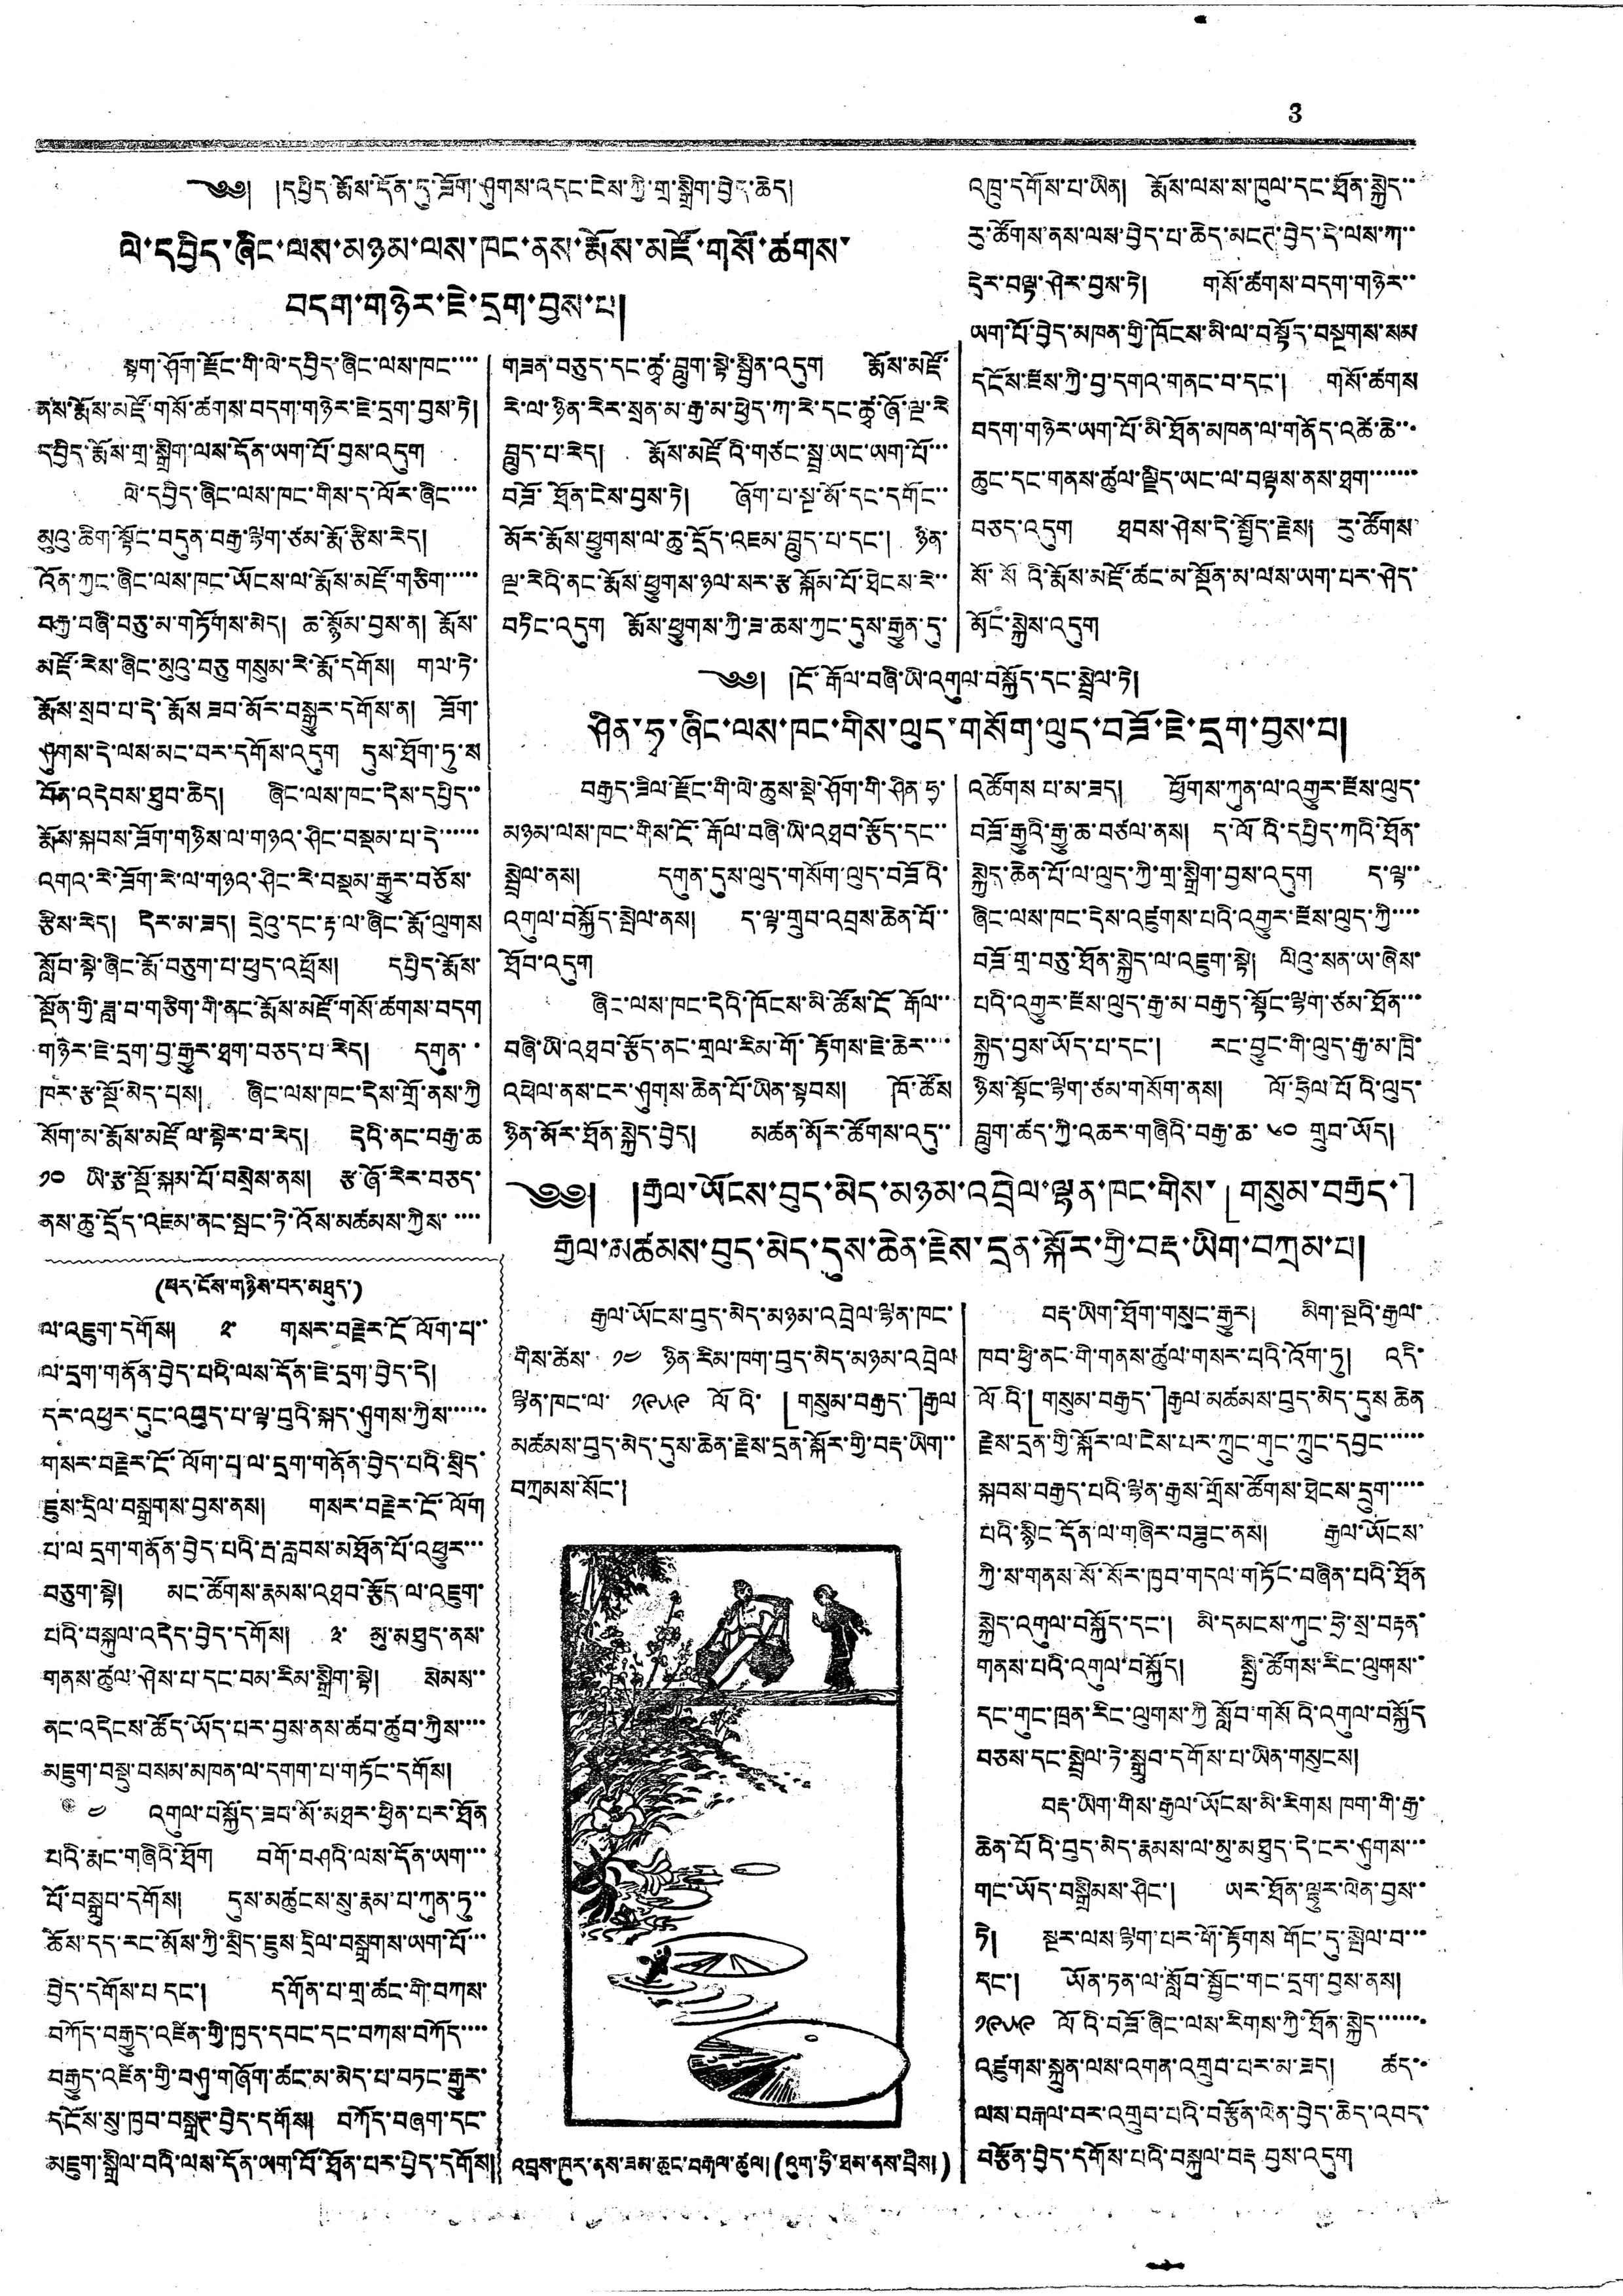3
༄༅། །དཔྱིད་རྨོས་དོན་དུ་ཟོག་ཤུགས་འདང་ངེས་ཀྱི་གྲ་སྒྲིག་བྱེད་ཆེད།
ལེ་དབྱིད་ཞིང་ལས་མཉམ་ལས་ཁང་ནས་རྨོས་མཛོ་གསོ་ཚགས་
བདག་གཉེར་ཇེ་དྲག་བྱས་པ།
སྟག་ཤོག་རྫོང་གི་ལེ་དབྱིད་ཞིང་ལས་ཁང་་་་
ནས་རྨོས་མཛོ་གསོ་ཚགས་བདག་གཉེར་ཇེ་དྲག་བྱས་ཏེ།
དཔྱིད་རྨོས་གྲ་སྒྲིག་ལས་དོན་ཡག་པོ་བྱས་འདུག
ལེ་དབྱིད་ཞིང་ལས་ཁང་གིས་ད་ལོར་ཞིང་་་་
མུའུ་ཆིག་སྟོང་བདུན་བརྒྱ་ལྷག་ཙམ་རྨོ་རྩིས་རེད།
འོན་ཀྱང་ཞིང་ལས་ཁང་ཡོངས་ལ་རྨོས་མཛོ་གཅིག་་་་་
བརྒྱ་བཞི་བཅུ་མ་གཏོགས་མེད། ཆ་སྙོམ་བྱས་ན། རྨོས་
མཛོ་རེས་ཞིང་མུའུ་བཅུ གསུམ་རེ་རྨོ་དགོས། གལ་ཏེ་
རྨོས་སྲབ་པ་དེ་རྨོས ཟབ་མོར་བསྒྱུར་དགོས་ན། ཟོག་
ཤུགས་དེ་ལས་མང་བར་དགོས་འདུག དུས་ཐོག་ཏུ་ས
བོན་འདེབས་ཐུབ་ཆེད། ཞིང་ལས་ཁང་དེས་དཔྱིད་་
རྨོས་སྐབས་ཟོག་གཉིས་ལ་གཉའ་ཤིང་བསྡམ་པ་དེ་་་་་
འགའ་རེ་ཟོག་རེ་ལ་གཉའ་ཤིང་རེ་བསྡམ་རྒྱུར་བཅོས་
རྩིས་རེད། དེར་མ་ཟད། དྲེའུ་དང་རྟ་ལ་ཞིང་རྨོ་ལུགས
སློབ་སྟེ་ཞིང་རྨོ་བཅུག་པ་ཕུད་འཕྲོས། དཔྱིད་རྨོས་
སྔོན་གྱི་ཟླ་བ་གཅིག་གི་ནང་རྨོས་མཛོ་གསོ་ཚགས་བདག
གཉེར་ཇེ་དྲག་བྱ་རྒྱུར་ཐག་བཅད་པ་རེད། དགུན་་
ཁར་རྩ་སྔོ་མེད་པས། ཞིང་ལས་ཁང་དེས་གྲོ་ནས་ཀྱི
སོག་མ་རྨོས་མཛོ ལ་སྟེར་བ་རེད། དེའི་ནང་བརྒྱ་ཆ
༡༠ ཡི་རྩ་སྔོ་སྐམ་པོ་བསྲེས་ནས། རྩ་ཞོ་རེར་བཅད་
ནས་ཆུ་དྲོད་འཇམ་ནང་སྦང་ཏེ་འོས་མཚམས་ཀྱིས་་་་་
གཟན་བཅུད་དང་ཚྭ་བླུག་སྟེ་སྦྱིན་འདུག རྨོས་མཛོ་
རེ་ལ་ཉིན་རེར་སྲན་མ་རྒྱ་མ་ཕྱེད་ཀ་རེ་དང་ཚྭ་ཞོ་ལྔ་རེ
བླུད་པ་རེད། རྨོས་མཛོའི་གཙང་སྦྲ་ཡང་ཡག་པོ་་་
བཟོ་ཐོན་ངེས་བྱས་ཏེ། ཞོག་པ་སྔ་མོ་དང་དགོང་་
མོར་རྨོས་ཕྱུགས་ལ་ཆུ་དྲོད་འཇམ་བླུད་པ་དང་། ཉིན་
ལྔ་རེའི་ནང་རྨོས་ཕྱུགས་ཉལ་སར་རྩ སྐོམ་པོ་ཐེངས་རེ་་
བཏིང་འདུག རྨོས་ཕྱུགས་ཀྱི་ཟ་ཆས་ཀྱང་དུས་རྒྱུན་དུ་
འཁྲུ་དགོས་པ་ཡིན། རྨོས་ལས་ས་ཁུལ་དང་ཐོན་སྐྱེད་་
རུ་ཚོགས་ནས་ལས་བྱེད་པ་ཆེད་མངཊ་བྱེད་དེ་ལས་ཀ་་
དེར་བལྟ་ཤེར་བྱས་ཏེ། གསོ་ཚགས་བདག་གཉེར་་
ཡག་པོ་བྱེད་མཁན་གྱི་ཁོངས་མི་ལ་བསྟོད་བསྔགས་སམ
དངོས་རྫས་ཀྱི་བྱ་དགའ་གནང་བ་དང་། གསོ་ཚགས
བདག་གཉེར་ཡག་པོ་མི་ཐོན་མཁན་ལ་གནོད་འཚེ་ཆེ་་་
ཆུང་དང་གནས་ཚུལ་ལྗིད་ཡང་ལ་བལྟས་ནས་ཐག་་་་་་་
བཅད་འདུག ཐབས་ཤེས་དེ་སྤྱོད་རྗེས། རུ་ཚོགས་
སོ་སོའི་རྨོས་མཛོ་ཚང་མ་སྔོན་མ་ལས་ཡག་པར་ཤེད་
མོང་སྐྱེས་འདུག
༄༅། །ངོ་རྒོལ་བཞི་ཡི་འགུལ་བསྐྱོད་དང་སྦྲེལ་ཏེ།
ཤིན་ཧྭ་ཞིང་ལས་ཁང་གིས་ལུད་གསོག་ལུད་བཟོ་ཇེ་དྲག་བྱས་པ།
བརྒྱད་ཟིལ་རྫོང་གི་ལེ་ཆུས་སྡེ་ཤོག་གི་ཤིན་ཧྭ་
མཉམ་ལས་ཁང་གིས་ངོ་རྒོལ་བཞི་ཡི་འཐབ་རྩོད་དང་་
སྦྲེལ་ནས། དགུན་དུས་ལུད་གསོག་ལུད་བཟོའི་
འགུལ་བསྐྱོད་སྤེལ་ནས། ད་ལྟ་གྲུབ་འབྲས་ཆེན་པོ་་
ཐོབ་འདུག
ཞིང་ལས་ཁང་དེའི་ཁོངས་མི་ཚོས་ངོ རྒོལ་་
བཞི་ཡི་འཐབ་རྩོད་ནང་གྲལ་རིམ་གོ་རྟོགས་ཇེ་ཆེར་་་་
འཕེལ་ནས་ངར་ཤུགས་ཆེན་པོ་ཡིན་སྟབས། ཁོ་ཚོས
ཉིན་མོར་ཐོན་སྐྱེད་བྱེད། མཚན་མོར་ཚོགས་འདུ་་
འཚོགས པ་མ་ཟད། ཕྱོགས་ཀུན་ལ་འགྱུར་རྫས་ལུད་
བཟོ་རྒྱུའི་རྒྱུ་ཆ་བཙལ་ནས། ད་ལོའི་དཔྱིད་ཀའི་ཐོན་
སྐྱེད་ཆེན་པོ་ལ་ལུད་ཀྱི་གྲ་སྒྲིག་བྱས་འདུག ད་ལྟ་་
ཞིང་ལས་ཁང་དེས་འཛུགས་པའི་འགྱུར་རྫས་ལུད་ཀྱི་་་་
བཟོ་གྲ་བཅུ་ཐོན་སྐྱེད་ལ་འཇུག་སྟེ། ལིའུ་སན་ཡ་ཞེས་
པའི་འགྱུར་རྫས་ལུད་རྒྱ་མ་བརྒྱད་སྟོང་ལྷག་ཙམ་ཐོན་་་
སྐྱེད་བྱས་ཡོད་པ་དང་། རང་བྱུང་གི་ལུད་རྒྱ་མ་ཁྲི་
ཉིས་སྟོང་ལྷག་ཙམ་གསོག་ནས། ལོ་ཧྲིལ་པོའི་ལུད་
བླུག་ཚད་ཀྱི་འཆར་གཞིའི་བརྒྱ་ཆ་ ༦༠ གྲུབ་ཡོད།
༄༅། །རྒྱལ་ཡོངས་བུད་མེད་མཉམ་འབྲེལ་ལྷན་ཁང་གིས་「གསུམ་བརྒྱད་」
རྒྱལ་མཚམས་བུད་མེད་དུས་ཆེན་རྗེས་དྲན་སྐོར་གྱོ་བརྡ་ཡིག་བཀྲམ་པ།
(པར་ངོས་གཉིས་པར་མཐུད་)
ལ་འཇུག་དོགས། ༢་ གསར་བརྗེར་ངོ ལོག་པ་་
ལ་དྲག་གནོན་བྱེད་པའི་ལས་དོན་ཇེ་དྲག་བྱེད་དེ།
དར་འཕྱར་དུང་འབུད་པ་ལྟ་བུའི་སྐད་ཤུགས་ཀྱིས་་་་་་
གསར་བརྗེར་ངོ་ལོག་པ་ལ་དྲག་གནོན་བྱེད་པའི་སྲིད་
ཇུས་དྲིལ་བསྒྲགས་བཡས་ནས། གསར་བརྗེར་ངོ་ལོག
པ་ལ དྲག་གནོན་བྱེད་པའི་རྦ་རླབས་མཐོན་པོ་འཕྱུར་་་
བཅུག་སྟེ། མང་ཚོགས་རྣམས་འཐབ་རྩོད་ལ་འཇུག་
པའི་བསྐུལ་འདེད་བྱེད་དགོས། ༣་ མུ་མཐུད་ནས་
གནས་ཚུལ་ཤེས་པ་དང་བམ་རིམ་སྒྲིག་སྟེ། སེམས་་
ནང་འདེངས་ཚོད་ཡོད་པར་བྱས་ནས་ཚབ་ཚུབ་ཀྱིས་་་་
མཇུག་བསྡུ་བསམ་མཁན་ལ་དགག་གཏོང་དོགས།
༤ འགུལ་བསྐྱོད་ཟབ་མོ་མཐར་ཕྱིན་པར་ཐོན
པའི་རྨང་གཞིའི་ཐོག བགོ་གཤའི་ལས་དོན་ཡག་་་
པོ་བསྒྲུབ་དགོས། དུས་མཚུངས་སུ་རྣམ་པ་ཀུན་ཏུ་་
ཆོས་དད་རང་མོས་ཀྱི་སྲིད་ཇུས་དྲིལ་བསྒྲགས་ཡག་པོ་་་
བྱེད་དགོས་པ དང་། དགོན་པ་གྲ་ཚང་གི་བཀས་
བཀོད་བརྒྱུད་འཛིན་གྱི་ཁྱད་དབང་དང་བཀས་བཀོད་་་་
བརྒྱུད་འཛིན་གྱི་བཤུ་གཞོག་ཚང་མ་མེད་པ་བཏང་རྒྱུར་
དངོས་སུ་ཁྱབ་བསྒྲཊ་བྱེད་དགོས། བཀོད་བཞག་དང་
མཇུག་སྒྲིལ་བའི་ལས་དོན་ཡག་པོ་ཐོན་པར་བྱེད་དགོས།
རྒྱལ་ཡོངས་བུད་མེད་མཉམ་འབྲེལ་ལྷན་ཁང་
གིས་ཚེས་ ༡༤ ཉིན་རིམ་ཁག་བུད་མེད་མཉམ་འབྲེལ
ལྷན་ཁང་ལ་ ༡༩༥༩ ལོའི་ 「གསུམ་བརྒྱད་」རྒྱལ
མཚམས་བུད་མེད་དུས་ཆེན་རྗེས་དྲན་སྐོར་གྱི་བརྡ་ཡིག་་
བཀྲམས་སོང་།
བརྡ་ཡིག་ཐོག་གསུང་རྒྱུར། མིག་སྔའི་རྒྱལ་
ཁབ་ཕྱི་ནང་གི་གནས་ཚུལ་གསར་པའི་འོག་ཏུ། འདི་
ལོའི་「གསུམ་བརྒྱད་」རྒྱལ་མཚམས་བུད་མེད་དུས ཆེན
རྗེས་དྲན་གྱི་སྐོར་ལ་ངེས་པར་ཀྲུང་གུང་ཀྲུང་དབྱང་་་་་་
སྐབས་བརྒྱད་པའི་ལྷན་རྒྱས་གྲོས་ཚོགས་ཐེངས་དྲུག་་་་་
པའི་སྙིང་དོན་ལ་གཞིར་བཟུང་ནས། རྒྱལ་ཡོངས་
ཀྱི་ས་གནས་སོ་སོར་ཁྱབ་གདལ་གཏོང་བཞིན་པའི་ཐོན
སྐྱེད་འགུལ་བསྐྱོད་དང་། མི་དམངས་ཀུང་ཧྲེ་སྲ་བརྟན་
གནས་པའི་འགུལ་བསྐྱོད། སྤྱི་ཚོགས་རིང་ལུགས་་
དང་གུང་ཁྲན་རིང་ལུགས་ཀྱི སློབ་གསོའི་འགུལ་བསྐྱོད
བཅས་དང་སྦྲེལ་ཏེ་སྒྲུབ་དགོས་པ་ཡིན་གསུངས།
བརྡ་ཡིག་གིས་རྒྱལ་ཡོངས་མི་རིགས ཁག་གི་རྒྱ་
ཆེན་པོའི་བུད་མེད་རྣམས་ལ་མུ་མཐུད་དེ་ངར་ཤུགས་་་
གང་ཡོད་བསྒྲིམས་ཤིང་། ཡར་ཐོན་ལྷུར་ལེན་བྱས་་
ཏེ། སྔར་ལས་ལྷག་པར་གོ་རྟོགས གོང་དུ་སྤེལ་བ་་་
དང་། ཡོན་ཏན་ལ་སློབ་སྦྱོང་གང་དྲག་བྱས་ནས།
༡༩༥༩ ལོའི་བཟོ་ཞིང་ལས་རིགས་ཀྱི་ཐོན་སྐྱེད་་་་་་་
འཛུགས་སྐྲུན་ལས་འགན་འགྲུབ་པར་མ་ཟད། ཚད་་
ལས་བརྒལ་བར་འགྲུབ་པའི་བརྩོན་ལེན་བྱེད་ཆེད་འབད་
བརྩོན་བྱེད་དགོས་པའི་བསྐུལ་བརྡ བྱས་འདུག
འབྲས་ཁུར་ནས་ཟམ་ཆུང་བརྒལ་ཚུལ། (འུག་ཧྲི་ཐམ་ནས་བྲིས།)
